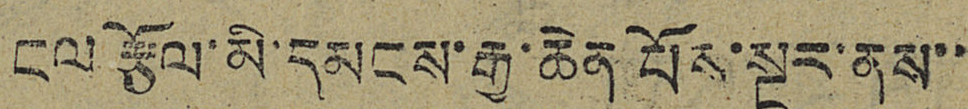ངལ་རྩོལ་མི་དམངས་རྒྱ་ཆེན པོས་སྔར་ནས་་
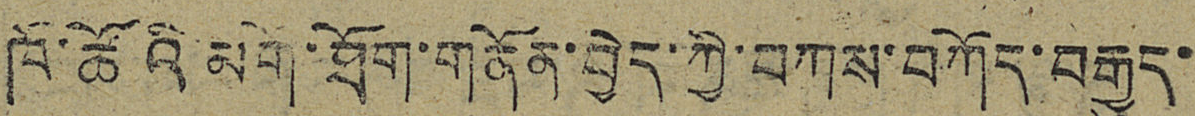ཁོ་ཚོའི་མགོ་ཐོག་གནོན་བྱེད་ཀྱི་བཀས་བཀོད་བརྒྱུད་
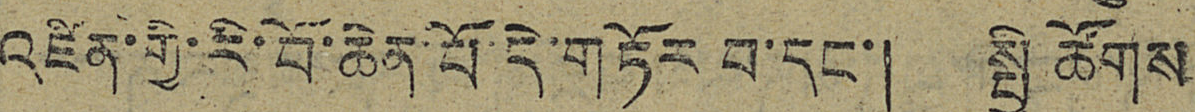འཛིན་གྱི་རི་བོ་ཆེན་པོ་དེ་གཏོར་བ་དང་། སྤྱི ཚོགས
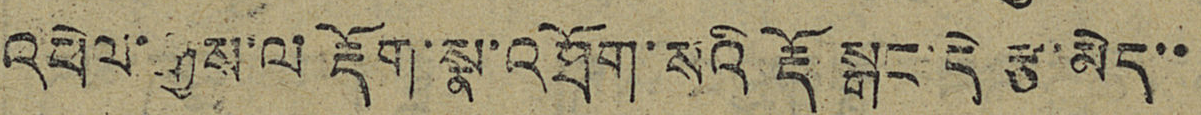འཕེལ་རྒྱས་ལ རྡོག་སྣ་འཐོག་སའི་རྡོ སྒང་དེ རྩ་མེད་་
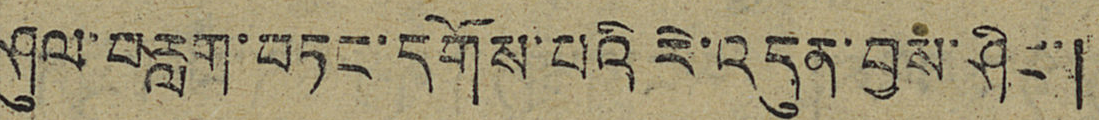ཤུལ་བརླག་བཏང་དགོས་པའི རེ་འདུན་བྱས་ཤིང་།
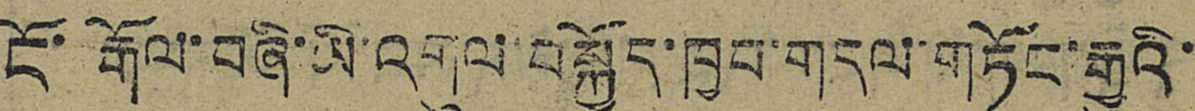ངོ་རྒོལ་བཞི་ཡི་འགུལ་བསྐྱོད་ཁྱབ་གདལ་གཏོང་རྒྱུའི་
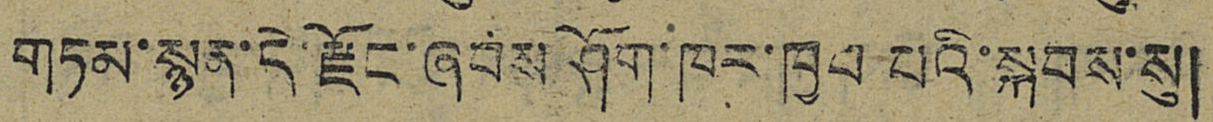གཏམ་སྙན་དེ་རྫོང་ཞབས ཤོག་ཁང་ཁྱབ་པའི་སྐབས་སུ།
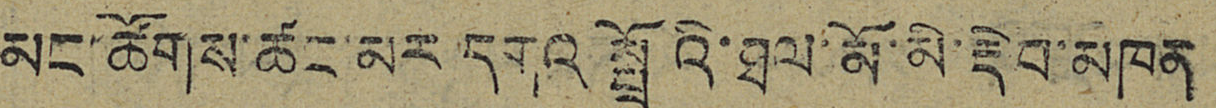མང་ཚོགས་ཚང་མར་དགའ སྤྲོའི་ཐལ་མོ་མི་རྡེབ་མཁན
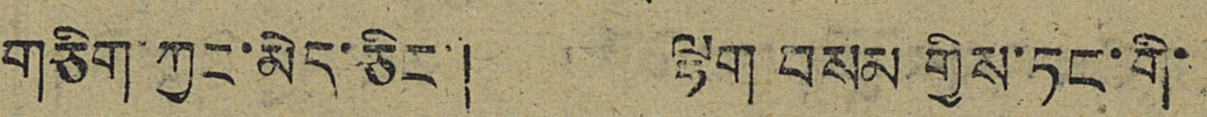གཅིག་ཀྱང་མེད་ཅིང་། ལྷག་བསམ གྱིས་ཏང་གི་
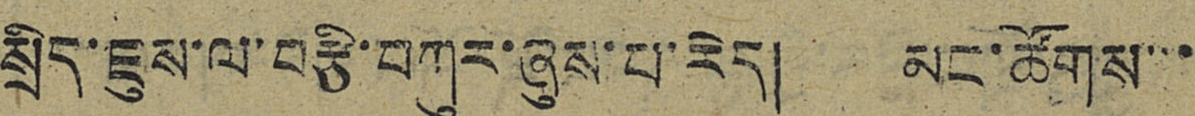སྲིད་ཇུས་ལ་བརྩི་བཀུར་ཞུས་པ་རེད། མང་ཚོགས་་་
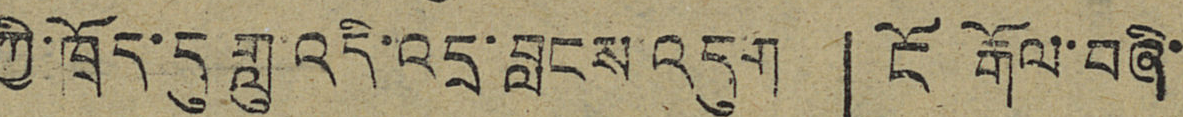ཀྱི་ཁྲོད་དུ གླུ་འདི་འདྲ་བླངས་འདུག 「ངོ རྒོལ་བཞི་
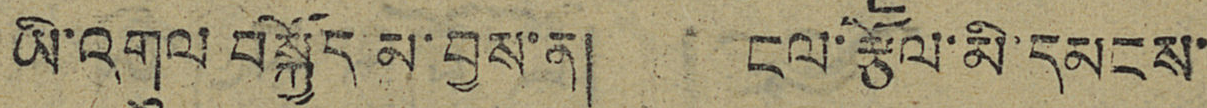ཡི་འགུལ བསྐྱོད མ་བྱས་ན། ངལ་རྩོལ་མི་དམངས་
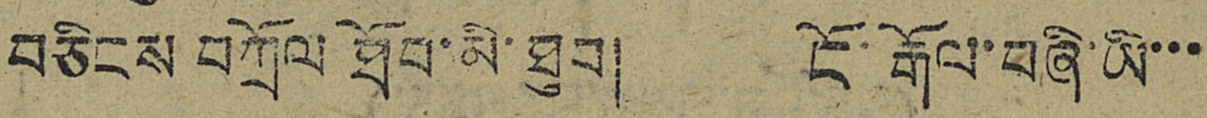བཅིངས བཀྲོལ ཐོབ་མི་ཐུབ། ངོ་རྒོལ་བཞི་ཡི་་་
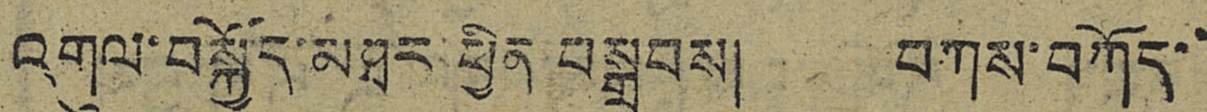འགུལ་བསྐྱོད་མཐར་ཕྱིན བསྒྲུབས། བཀས་བཀོད་་
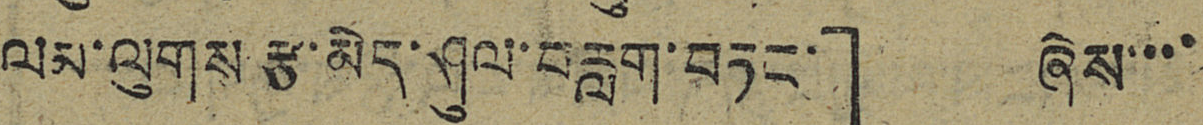ལམ་ལུགས་རྩ་མེད་ཤུལ་བརླག་བཏང་」 ཞེས་་་་
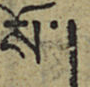སོ་།
